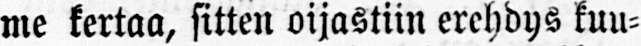me kertaa, sitten oijastiin erehdys kuu-
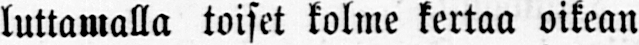luttamalla toiset kolme kertaa oikean
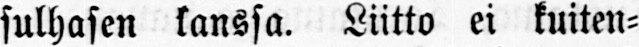sulhasen kanssa. Liitto ei kuiten-
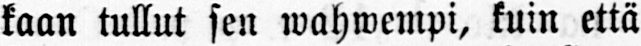kaan tullut sen wahwempi, kuin että
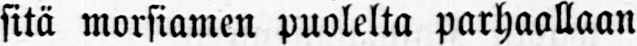sitä morsiamen puolelta parhaallaan
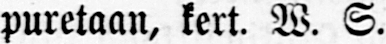puretaan, kert. W. S.
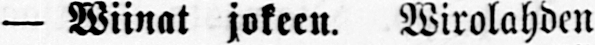— Wiinat jokeen. Wirolahden
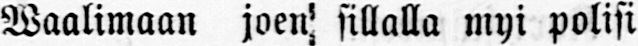Waalimaan joen sillalla myi polisi
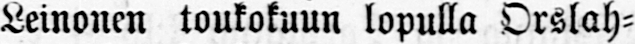Leinonen toukokuun lopulla Orslah-
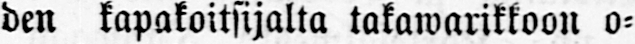den kapakoitsijalta takawarikkoon o-
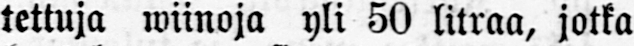tettuja wiinoja yli 50 litraa, jotka
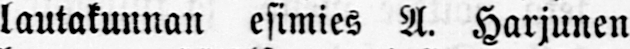lautakunnan esimies A. Harjunen
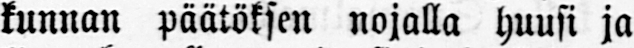kunnan päätöksen nojalla huusi ja
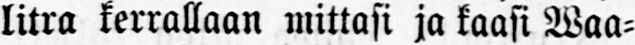litra kerrallaan mittasi ja kaasi Waa-
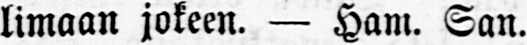limaan jokeen. — Ham. San.
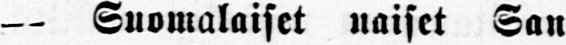— Suomalaiset naiset San
